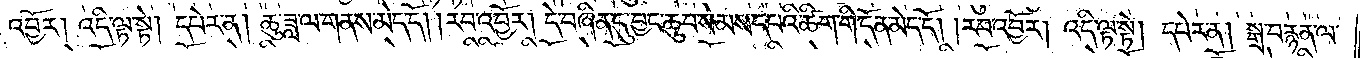འབྱོར། འདི་ལྟ་སྟེ། དཔེར་ན། ཆུ་ཟླ་ལ་གནས་མེད་དོ། །རབ་འབྱོར། དེ་བཞིན་དུ་བྱང་ཆུབ་སེམས་དཔའི་ཚིག་གི་དོན་མེད་དོ། །རབ་འབྱོར། འདི་ལྟ་སྟེ། དཔེར་ན། སྒྲ་བརྙན་ལ་
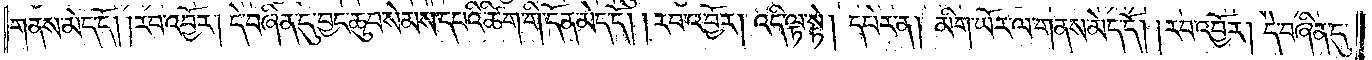གནས་མེད་དོ། །རབ་འབྱོར། དེ་བཞིན་དུ་བྱང་ཆུབ་སེམས་དཔའི་ཚིག་གི་དོན་མེད་དོ། །རབ་འབྱོར། འདི་ལྟ་སྟེ། དཔེར་ན། མིག་ཡོར་ལ་གནས་མེད་དོ། །རབ་འབྱོར། དེ་བཞིན་དུ་
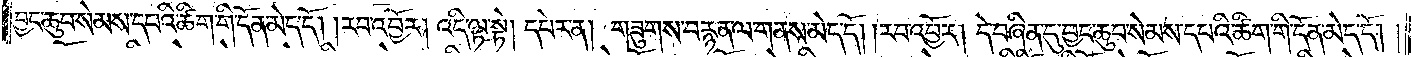བྱང་ཆུབ་སེམས་དཔའི་ཚིག་གི་དོན་མེད་དོ། །རབ་འབྱོར། འདི་ལྟ་སྟེ། དཔེར་ན། གཟུགས་བརྙན་ལ་གནས་མེད་དོ། །རབ་འབྱོར། དེ་བཞིན་དུ་བྱང་ཆུབ་སེམས་དཔའི་ཚིག་གི་དོན་མེད་དོ། །
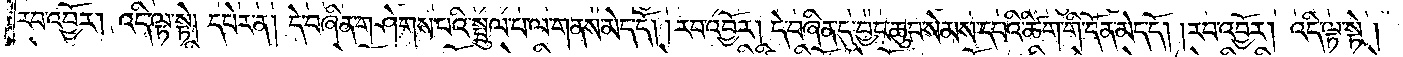རབ་འབྱོར་འདི་ལྟ་སྟེ། དཔེར་ན། དེ་བཞིན་གཤེགས་པའི་སྤྲུལ་པ་ལ་གནས་མེད་དོ། །རབ་འབྱོར། དེ་བཞིན་དུ་བྱང་ཆུབ་སེམས་དཔའི་ཚིག་གི་དོན་མེད་དོ། །རབ་འབྱོར། འདི་ལྟ་སྟེ།
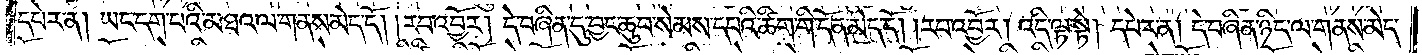དཔེར་ན། ཡང་དག་པའི་མཐའ་ལ་གནས་མེད་དོ། །རབ་འབྱོར། དེ་བཞིན་དུ་བྱང་ཆུབ་སེམས་དཔའི་ཚིག་གི་དོན་མེད་དོ། །རབ་འབྱོར། འདི་ལྟ་སྟེ། དཔེར་ན། དེ་བཞིན་ཉིད་ལ་གནས་མེད་
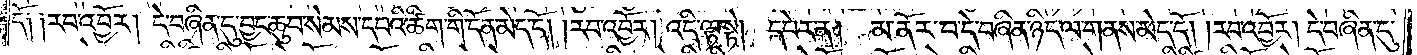དོ། །རབ་འབྱོར། དེ་བཞིན་དུ་བྱང་ཆུབ་སེམས་དཔའི་ཚིག་གི་དོན་མེད་དོ། །རབ་འབྱོར། འདི་ལྟ་སྟེ། དཔེར་ན། མ་ནོར་བ་དེ་བཞིན་ཉིད་ལ་གནས་མེད་དོ། །རབ་འབྱོར། དེ་བཞིན་དུ་
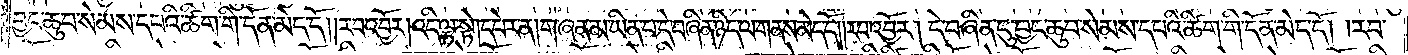བྱང་ཆུབ་སེམས་དཔའི་ཚིག་གི་དོན་མེད་དོ། །རབ་འབྱོར། འདི་ལྟ་སྟེ། དཔེར་ན། གཞན་མ་ཡིན་པ་དེ་བཞིན་ཉིད་ལ་གནས་མེད་དོ། །རབ་འབྱོར། དེ་བཞིན་དུ་བྱང་ཆུབ་སེམས་དཔའི་ཚིག་གི་དོན་མེད་དོ། །རབ་
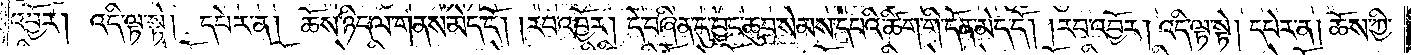འབྱོར། འདི་ལྟ་སྟེ། དཔེར་ན། ཆོས་ཉིད་ལ་གནས་མེད་དོ། །རབ་འབྱོར། དེ་བཞིན་དུ་བྱང་ཆུབ་སེམས་དཔའི་ཚིག་གི་དོན་མེད་དོ། །རབ་འབྱོར། འདི་ལྟ་སྟེ། དཔེར་ན། ཆོས་ཀྱི་
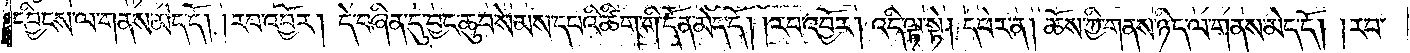དབྱིངས་ལ་གནས་མེད་དོ། །རབ་འབྱོར། དེ་བཞིན་དུ་བྱང་ཆུབ་སེམས་དཔའི་ཚིག་གི་དོན་མེད་དོ། །རབ་འབྱོར། འདི་ལྟ་སྟེ། དཔེར་ན། ཆོས་ཀྱི་གནས་ཉིད་ལ་གནས་མེད་དོ། །རབ་
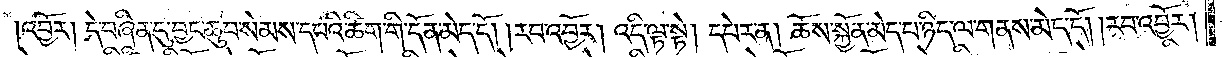འབྱོར། དེ་བཞིན་དུ་བྱང་ཆུབ་སེམས་དཔའི་ཚིག་གི་དོན་མེད་དོ། །རབ་འབྱོར། འདི་ལྟ་སྟེ། དཔེར་ན། ཆོས་སྐྱོན་མེད་པ་ཉིད་ལ་གནས་མེད་དོ། །རབ་འབྱོར།
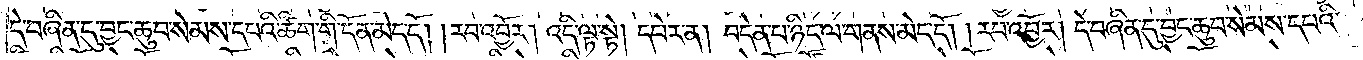དེ་བཞིན་དུ་བྱང་ཆུབ་སེམས་དཔའི་ཚིག་གི་དོན་མེད་དོ། །རབ་འབྱོར། འདི་ལྟ་སྟེ། དཔེར་ན། བདེན་པ་ཉིད་ལ་གནས་མེད་དོ། །རབ་འབྱོར། དེ་བཞིན་དུ་བྱང་ཆུབ་སེམས་དཔའི་
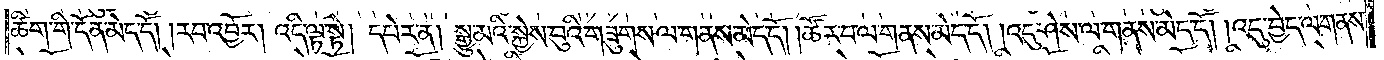ཚིག་གི་དོན་མེད་དོ། །རབ་འབྱོར། འདི་ལྟ་སྟེ། དཔེར་ན། སྒྱུ་མའི་སྐྱེས་བུའི་གཟུགས་ལ་གནས་མེད་དོ། །ཚོར་བ་ལ་གནས་མེད་དོ། །འདུ་ཤེས་ལ་གནས་མེད་དོ། །འདུ་བྱེད་ལ་གནས་
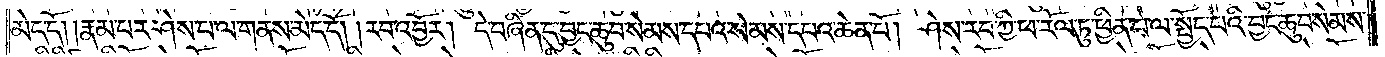མེད་དོ། །རྣམ་པར་ཤེས་པ་ལ་གནས་མེད་དོ། །རབ་འབྱོར། དེ་བཞིན་དུ་བྱང་ཆུབ་སེམས་དཔའ་སེམས་དཔའ་ཆེན་པོ། ཤེས་རབ་ཀྱི་ཕ་རོལ་ཏུ་ཕྱིན་པ་ལ་སྤྱོད་པའི་བྱང་ཆུབ་སེམས་
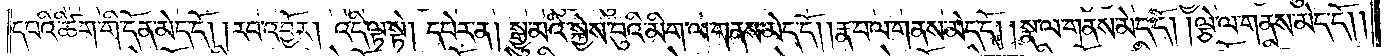དཔའི་ཚིག་གི་དོན་མེད་དོ། །རབ་འབྱོར། འདི་ལྟ་སྟེ། དཔེར་ན། སྒྱུ་མའི་སྐྱེས་བུའི་མིག་ལ་གནས་མེད་དོ། །རྣ་བ་ལ་གནས་མེད་དོ། །སྣ་ལ་གནས་མེད་དོ། །ལྕེ་ལ་གནས་མེད་དོ། །
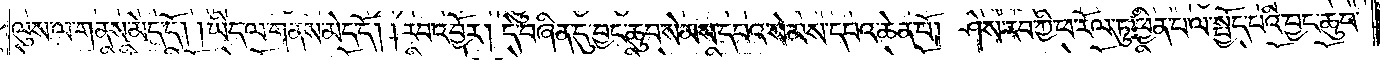ལུས་ལ་གནས་མེད་དོ། །ཡིད་ལ་གནས་མེད་དོ། །རབ་འབྱོར། དེ་བཞིན་དུ་བྱང་ཆུབ་སེམས་དཔའ་སེམས་དཔའ་ཆེན་པོ། ཤེས་རབ་ཀྱི་ཕ་རོལ་ཏུ་ཕྱིན་པ་ལ་སྤྱོད་པའི་བྱང་ཆུབ་
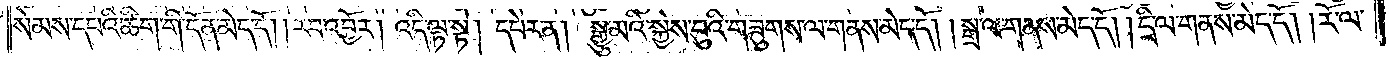སེམས་དཔའི་ཚིག་གི་དོན་མེད་དོ། །རབ་འབྱོར། འདི་ལྟ་སྟེ། དཔེར་ན། སྒྱུ་མའི་སྐྱེས་བུའི་གཟུགས་ལ་གནས་མེད་དོ། །སྒྲ་ལ་གནས་མེད་དོ། །དྲི་ལ་གནས་མེད་དོ། །རོ་ལ་
